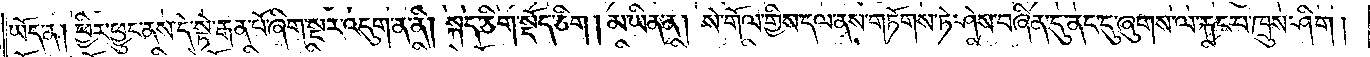ཡོད་ན། ཕྱིར་ཕྱུང་ནས་དེ་སྟེ་རྒན་པོ་ཞིག་སྔར་འདུག་ན་ནི། སྐད་ཅིག་སྡོད་ཅིག །མ་ཡིན་ན། སེ་གོལ་གྱིས་དལ་ནས་གཏོགས་ཏེ་ཤེས་བཞིན་དུ་ནང་དུ་ཞུགས་ལ་རྐང་པ་ཁྲུས་ཤིག།
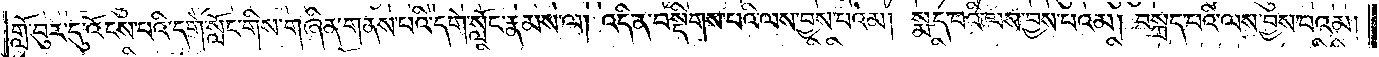གློ་བུར་དུ་འོངས་པའི་དགེ་སློང་གིས་གཞིན་གནས་པའི་དགེ་སློང་རྣམས་ལ། འདི་ན་བསྡིགས་པའི་ལས་བྱས་པའམ། སྨད་པའི་ལས་བྱས་པའམ། བསྐྲད་པའི་ལས་བྱས་པའམ།
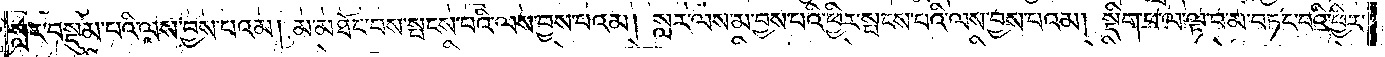སླར་བསྡུམ་པའི་ལས་བྱས་པའམ། མ་མཐོང་བས་སྤངས་པའི་ལས་བྱས་པའམ། སླར་ལས་མ་བྱས་པའི་ཕྱིར་སྤངས་པའི་ལས་བྱས་པའམ། སྡིག་པ་ལ་ལྟ་བ་མ་བཏང་བའི་ཕྱིར།
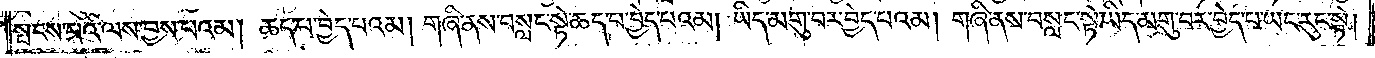སྤངས་པའི་ལས་བྱས་པའམ། ཆད་པ་བྱེད་པའམ། གཞི་ནས་བསླང་སྟེ་ཆད་པ་བྱེད་པའམ། ཡིད་མགུ་བར་བྱེད་པའམ། གཞི་ནས་བསླང་སྟེ་ཡིད་མགུ་བར་བྱེད་པ་ཡང་རུང་སྟེ།
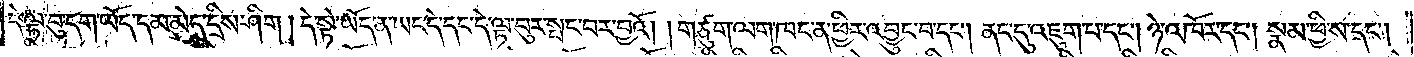དེ་ལྟ་བུ་དག་ཡོད་དམ་མེད་དྲིས་ཤིག །དེ་སྟེ་ཡོད་ན་ཡང་དེ་དང་དེ་ལྟ་བུར་སྤང་བར་བྱའོ། །གཙུག་ལག་ཁང་ན་ཕྱིར་འབྱུང་བ་དང༌། ནང་དུ་འཇུག་པ་དང༌། ཉེ་འཁོར་དང༌། སྣམ་ཕྱི་ས་དང༌།
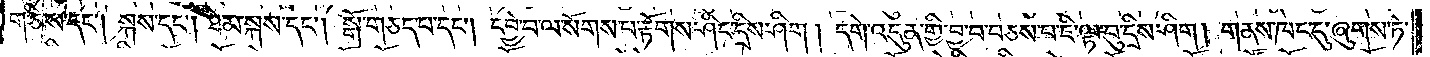གཅིས་དང༌། སྐས་དང༌། ཐེམ་སྐས་དང༌། སྒོ་གཅད་པ་དང༌། དབྱེ་བ་ལ་སོགས་པ་རྟོགས་ཤིང་དྲིས་ཤིག །དགེ་འདུན་གྱི་བྱ་བ་བཅས་པ་ཇི་ལྟ་བུ་དྲིས་ཤིག །གནས་ཁང་དུ་ཞུགས་ཏེ་
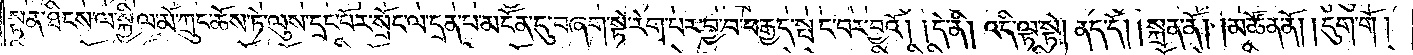སྟན་ཐིངས་ལ་སྐྱིལ་མོ་ཀྲུང་ཆོས་ཏེ་ལུས་དྲང་པོར་སྲོང་ལ་དྲན་པ་མངོན་དུ་བཞག་སྟེ་རེག་པར་བྱ་བ་བརྒྱད་སྤང་བར་བྱའོ། །དེ་ནི། འདི་ལྟ་སྟེ། ནད་དོ། །སྐྲན་ནོ། །མཚོན་ནོ། །དུག་གོ།
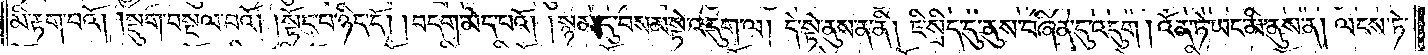མི་རྟག་པའོ། །སྡུག་བསྔལ་བའོ། །སྟོང་པ་ཉིད་དོ། །བདག་མེད་པའོ། །སྙམ་དུ་བསམ་སྟེ་འདུག་ལ། དེ་སྟེ་ནུས་ན་ནི། ཇི་སྲིད་དུ་ནུས་བཞིན་དུ་འདུག །འོན་ཏེ་ཡང་མི་ནུས་ན། ལངས་ཏེ་
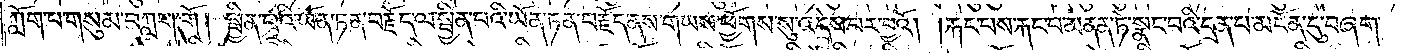ཀློག་པ་གསུམ་བཀླག་གོ། སྦྱིན་པའི་ཡོན་ཏན་བརྗོད་ལ་སྦྱིན་པའི་ཡོན་ཏན་བརྗོད་ནས་གཡས་ཕྱོགས་སུ་འདྲེས་པར་བྱའོ། །རྐང་པས་རྐང་པ་མནན་ཏེ་སྣང་བའི་དྲན་པ་མངོན་དུ་བཞག་
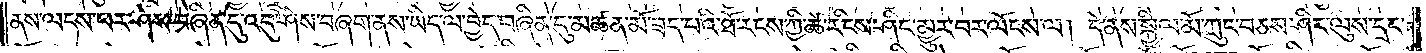ནས་ལངས་པར་ཤེས་བཞིན་དུ་འདུ་ཤེས་བཞག་ནས་ཡིད་ལ་བྱེད་བཞིན་དུ་མཚན་མོ་ཟད་པའི་ཐོ་རངས་ཀྱི་ཚེ་རིངས་ཤིང་མྱུར་བར་ལོངས་ལ། དེ་ནས་སྐྱིལ་མོ་ཀྲུང་བཅས་ཤིང་ལུས་དྲང་
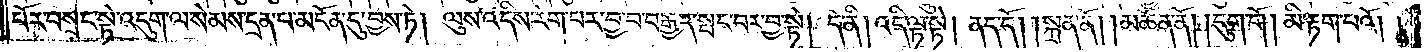ཁོར་བསྲང་སྟེ་འདུག་ལ་སེམས་དྲན་པ་མངོན་དུ་བྱས་ཏེ། ལུས་འདིས་རེག་པར་བྱ་བ་བརྒྱད་སྤང་བར་བྱ་སྟེ། དེ་ནི། འདི་ལྟ་སྟེ། ནད་དོ། །སྐྲན་ནོ། །མཚོན་ནོ། །དུག་གོ། མི་རྟག་པའོ། །
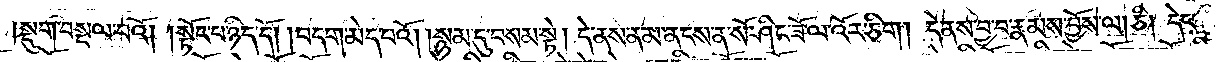སྡུག་བསྔལ་བའོ། །སྟོང་པ་ཉིད་དོ། །བདག་མེད་པའོ། །སྙམ་དུ་བསམ་སྟེ། དེ་ནས་ནམ་ནངས་ན་སོ་ཤིང་ཟོ་ལ་འོར་ཅིག །དེ་ནས་བྱ་བ་རྣམས་བྱོས་ལ། ཅི། དེང་
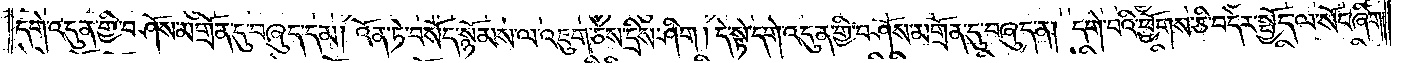དགེ་འདུན་གྱི་བཤོས་མགྲོན་དུ་བཞུད་དམ། འོན་ཏེ་བསོད་སྙོམས་ལ་འཇུག་ཅེས་དྲིས་ཤིག །དེ་སྟེ་དགེ་འདུན་གྱི་བཤོས་མགྲོན་དུ་བཞུད་ན། དགེ་བའི་ཕྱོགས་ཅི་བདེར་སྤྱོད་ལ་སོང་ཞིག་
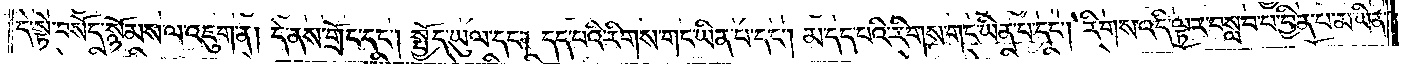དེ་སྟེ་བསོད་སྙོམས་ལ་འཇུག་ན། དེ་ནས་གྲོང་དང༌། སྤྱོད་ཡུལ་དང༌། དད་པའི་རིགས་གང་ཡིན་པ་དང༌། མ་དད་པའི་རིགས་གང་ཡིན་པ་དང༌། རིགས་འདི་ལྟར་བསླབ་པ་བྱིན་པ་མ་ཡིན་
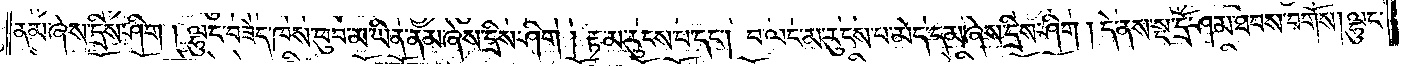ནམ་ཞེས་དྲིས་ཤིག །ལྷུང་བཟེད་ཁས་ཕུབ་མ་ཡིན་ནམ་ཞེས་དྲིས་ཤིག །རྟ་མ་རུངས་པ་དང༌། བ་ལང་མ་རུངས་པ་མེད་དམ་ཞེས་དྲིས་ཤིག །དེ་ནས་སྔ་དྲོ་ཤམ་ཐབས་བགོས། ལྷུང་
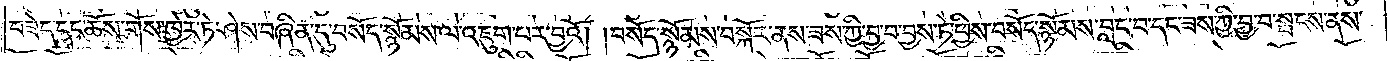བཟེད་དང་ཆོས་གོས་ཁྱེར་ཏེ་ཤེས་བཞིན་དུ་བསོད་སྙོམས་ལ་འཇུག་པར་བྱའོ། །བསོད་སྙོམས་བསྐོར་ནས་ཟས་ཀྱི་བྱ་བ་བྱས་ཏེ་ཕྱིས་བསོད་སྙོམས་བླང་བ་དང་ཟས་ཀྱི་བྱ་བ་སྤངས་ནས་
